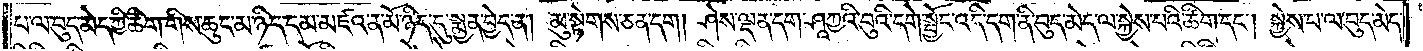པ་ལ་བུད་མེད་ཀྱི་ཚིག་གིས་ཆུང་མ་ཉིད་དམ་མཛའ་ན་མོ་ཉིད་དུ་སྨྱན་བྱེད་ན། མུ་སྟེགས་ཅན་དག། ཤེས་ལྡན་དག་ཤཱཀྱའི་བུའི་དགེ་སྦྱོང་འདི་དག་ནི་བུད་མེད་ལ་སྐྱེས་པའི་ཚིག་དང༌། སྐྱེས་པ་ལ་བུད་མེད་
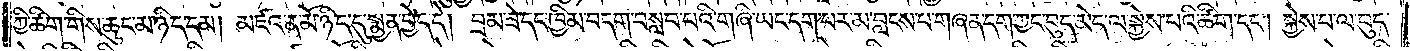ཀྱི་ཚིག་གིས་ཆུང་མ་ཉིད་དམ། མཛའ་ན་མོ་ཉིད་དུ་སྨྱན་བྱེད་དེ། བྲམ་ཟེ་དང་ཁྱིམ་བདག་བསླབ་པའི་གཞི་ཡང་དག་པར་མ་བླངས་པ་གཞན་དག་ཀྱང་བུད་མེད་ལ་སྐྱེས་པའི་ཚིག་དང༌། སྐྱེས་པ་ལ་བུད་
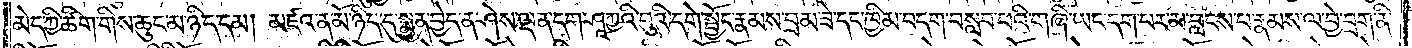མེད་ཀྱི་ཚིག་གིས་ཆུང་མ་ཉིད་དམ། མཛའ་ན་མོ་ཉིད་དུ་སྨྱན་བྱེད་ན་ཤེས་ལྡན་དག་ཤཱཀྱའི་བུའི་དགེ་སྦྱོང་རྣམས་བྲམ་ཟེ་དང་ཁྱིམ་བདག་བསླབ་པའི་གཞི་ཡང་དག་པར་མ་བླངས་པ་རྣམས་ལ་བྱེ་བྲག་ནི་
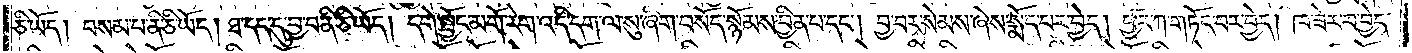ཅི་ཡོད། བསམ་པ་ནི་ཅི་ཡོད། ཐ་དད་དུ་བྱ་བ་ནི་ཅི་ཡོད། དགེ་སྦྱོང་མགོ་རེག་འདི་དག་ལ་སུ་ཞིག་བསོད་སྙོམས་བྱིན་པ་དང༌། བྱ་བར་སེམས་ཞེས་སྨོད་པར་བྱེད། ཕྱར་ཀ་གཏོང་བར་བྱེད། ཁ་ཟེར་བ་བྱེད་
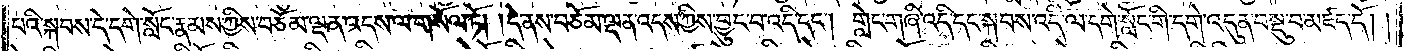པའི་སྐབས་དེ་དགེ་སློང་རྣམས་ཀྱིས་བཅོམ་ལྡན་འདས་ལ་གསོལ་ཏོ། །དེ་ནས་བཅོམ་ལྡན་འདས་ཀྱིས་བྱུང་བ་འདི་དང༌། གླེང་གཞི་འདི་དང་སྐབས་འདི་ལ་དགེ་སློང་གི་དགེ་འདུན་བསྡུ་བ་མཛད་དོ། །
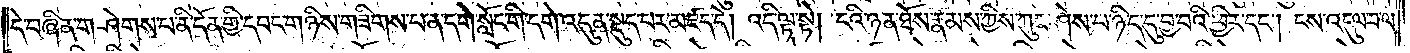དེ་བཞིན་གཤེགས་པ་ནི་དོན་གྱི་དབང་གཉིས་གཟིགས་པ་ན་དགེ་སློང་གི་དགེ་འདུན་སྡུད་པར་མཛད་དེ། འདི་ལྟ་སྟེ། ངའི་ཉན་ཐོས་རྣམས་ཀྱིས་ཀུན་ཤེས་པ་ཉིད་དུ་བྱ་བའི་ཕྱིར་དང༌། ངས་འདུལ་བ་ལ་
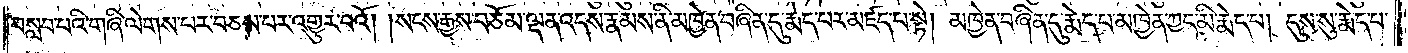བསླབ་པའི་གཞི་ལེགས་པར་བཅས་པར་འགྱུར་བའོ། །སངས་རྒྱས་བཅོམ་ལྡན་འདས་རྣམས་ནི་མཁྱེན་བཞིན་དུ་རྨེད་པར་མཛད་པ་སྟེ། མཁྱེན་བཞིན་དུ་རྨེད་པ་མཁྱེན་ཀྱང་མི་རྨེད་པ། དུས་སུ་རྨེད་པ་
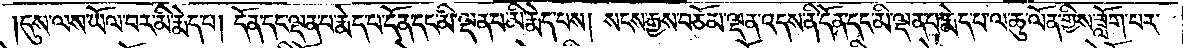དུས་ལས་ཡོལ་བར་མི་རྨེད་པ། དོན་དང་ལྡན་པ་རྨེད་པ་དོན་དང་མི་ལྡན་པ་མི་རྨེད་པས། སངས་རྒྱས་བཅོམ་ལྡན་འདས་ནི་དོན་དང་མི་ལྡན་པ་རྨེད་པ་ལ་ཆུ་ལོན་གྱིས་ཟློག་པར་
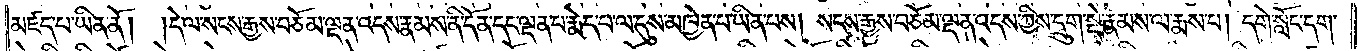མཛད་པ་ཡིན་ནོ། །དེ་ལ་སངས་རྒྱས་བཅོམ་ལྡན་འདས་རྣམས་ནི་དོན་དང་ལྡན་པ་རྨེད་པ་ལ་དུས་མཁྱེན་པ་ཡིན་པས། སངས་རྒྱས་བཅོམ་ལྡན་འདས་ཀྱིས་དྲུག་སྡེ་རྣམས་ལ་རྨས་པ། དགེ་སློང་དག་
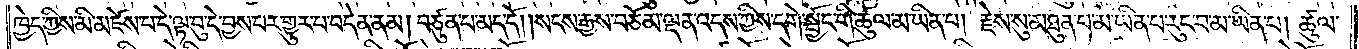ཁྱེད་ཀྱིས་མི་མཛེས་པ་དེ་ལྟ་བུ་དེ་བྱས་པར་གྱུར་པ་བདེན་ནམ། བཙུན་པ་མད་དོ། །སངས་རྒྱས་བཅོམ་ལྡན་འདས་ཀྱིས་དགེ་སྦྱོང་གི་ཚུལ་མ་ཡིན་པ། རྗེས་སུ་མཐུན་པ་མ་ཡིན་པ་རུང་བ་མ་ཡིན་པ། ཚུལ་
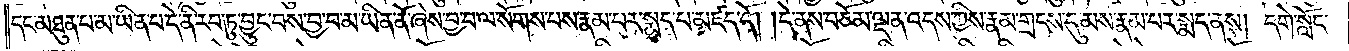དང་མཐུན་པ་མ་ཡིན་པ་དེ་ནི་རབ་ཏུ་བྱུང་བས་བྱ་བ་མ་ཡིན་ནོ་ཞེས་བྱ་བ་ལ་སོགས་པས་རྣམ་པར་སྨད་པ་མཛད་དོ། །དེ་ནས་བཅོམ་ལྡན་འདས་ཀྱིས་རྣམ་གྲངས་དུ་མས་རྣམ་པར་སྨད་ནས། དགེ་སློང་
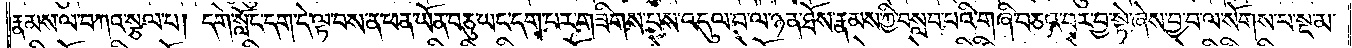རྣམས་ལ་བཀའ་སྩལ་པ། དགེ་སློང་དག་དེ་ལྟ་བས་ན་ཕན་ཡོན་བཅུ་ཡང་དག་པར་གཟིགས་པས་འདུལ་བ་ལ་ཉན་ཐོས་རྣམས་ཀྱི་བསླབ་པའི་གཞི་བཅའ་བར་བྱ་སྟེ་ཞེས་བྱ་བ་ལ་སོགས་པ་སྔ་མ་
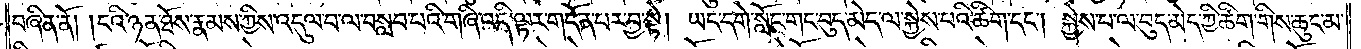བཞིན་ནོ། །ངའི་ཉན་ཐོས་རྣམས་ཀྱིས་འདུལ་བ་ལ་བསླབ་པའི་གཞི་འདི་ལྟར་གདོན་པར་བྱ་སྟེ། ཡང་དགེ་སློང་གང་བུད་མེད་ལ་སྐྱེས་པའི་ཚིག་དང༌། སྐྱེས་པ་ལ་བུད་མེད་ཀྱི་ཚིག་གིས་ཆུང་མ་
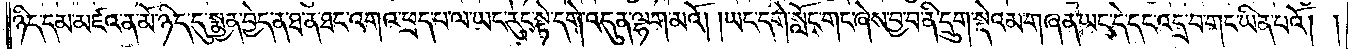ཉིད་དམ་མཛའ་ན་མོ་ཉིད་དུ་སྨྱན་བྱེད་ན་ཐ་ན་ཐང་འགའ་ཕྲད་པ་ལ་ཡང་རུང་སྟེ་དགེ་འདུན་ལྷག་མའོ། །ཡང་དགེ་སློང་གང་ཞེས་བྱ་བ་ནི་དྲུག་སྡེའམ་གཞན་ཡང་དེ་དང་འདྲ་བ་གང་ཡིན་པའོ། །
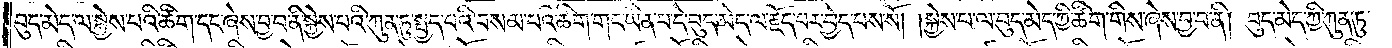བུད་མེད་ལ་སྐྱེས་པའི་ཚིག་དང་ཞེས་བྱ་བ་ནི་སྐྱེས་པའི་ཀུན་ཏུ་སྤྱད་པའི་བསམ་པའི་ཚིག་གང་ཡིན་པ་དེ་བུད་མེད་ལ་རྗོད་པར་བྱེད་པས་སོ། །སྐྱེས་པ་ལ་བུད་མེད་ཀྱི་ཚིག་གིས་ཞེས་བྱ་བ་ནི། བུད་མེད་ཀྱི་ཀུན་ཏུ་
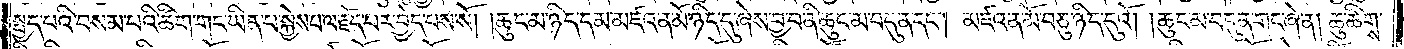སྤྱད་པའི་བསམ་པའི་ཚིག་གང་ཡིན་པ་སྐྱེས་པ་ལ་རྗོད་པར་བྱེད་པས་སོ། །ཆུང་མ་ཉིད་དམ་མཛའ་ན་མོ་ཉིད་དུ་ཞེས་བྱ་བ་ནི་ཆུང་མ་བདུན་དང༌། མཛའ་ན་མོ་བཅུ་ཉིད་དུའོ། །ཆུང་མ་བདུན་གང་ཞེ་ན། ཆུ་ཚིགས་
